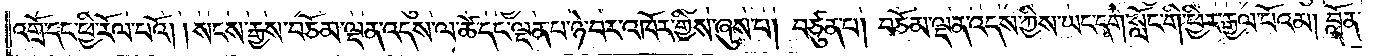འགྲོ་དང་ཕྱི་རོལ་པའོ། །སངས་རྒྱས་བཅོམ་ལྡན་འདས་ལ་ཚེ་དང་ལྡན་པ་ཉེ་བར་འཁོར་གྱིས་ཞུས་པ། བཙུན་པ། བཅོམ་ལྡན་འདས་ཀྱིས་ཡང་དགེ་སློང་གི་ཕྱིར་རྒྱལ་པོའམ། བློན་
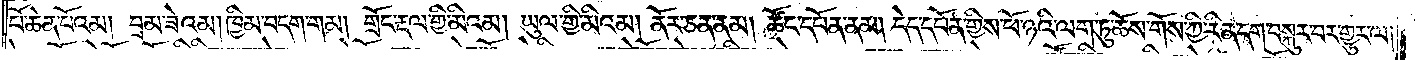པོ་ཆེན་པོའམ། བྲམ་ཟེའམ། ཁྱིམ་བདག་གམ། གྲོང་རྡལ་གྱི་མིའམ། ཡུལ་གྱི་མིའམ། ནོར་ཅན་ནམ། ཚོང་དཔོན་ནམ། དེད་དཔོན་གྱིས་ཕོ་ཉའི་ལག་ཏུ་ཆོས་གོས་ཀྱི་རིན་དག་བསྐུར་བར་གྱུར་ལ།
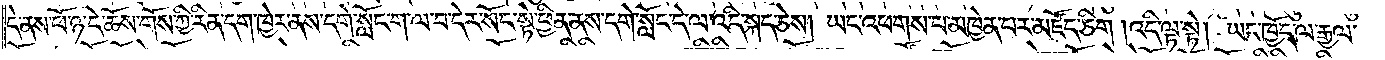དེ་ནས་ཕོ་ཉ་དེ་ཆོས་གོས་ཀྱི་རིན་དག་ཁྱེར་ནས་དགེ་སློང་ག་ལ་བ་དེར་སོང་སྟེ་ཕྱིན་ནས་དགེ་སློང་དེ་ལ་འདི་སྐད་ཅེས། ཡང་འཕགས་པ་མཁྱེན་པར་མཛོད་ཅིག །འདི་ལྟ་སྟེ། ཡང་ཁྱོད་ལ་རྒྱལ་
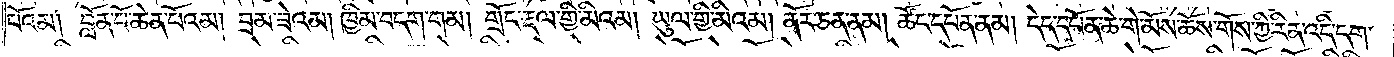པོའམ། བློན་པོ་ཆེན་པོའམ། བྲམ་ཟེའམ། ཁྱིམ་བདག་གམ། གྲོང་རྡལ་གྱི་མིའམ། ཡུལ་གྱི་མིའམ། ནོར་ཅན་ནམ། ཚོང་དཔོན་ནམ། དེད་དཔོན་ཆེ་གེ་མོས་ཆོས་གོས་ཀྱི་རིན་འདི་དག་
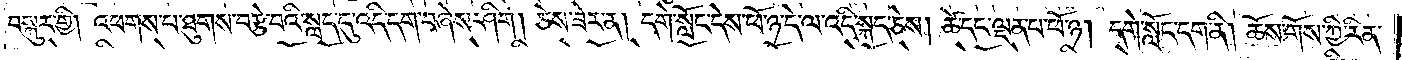བསྐུར་གྱི། འཕགས་པ་ཐུགས་བརྩེ་བའི་སླད་དུ་འདི་དག་བཞེས་ཤིག །ཅེས་ཟེར་ན། དགེ་སློང་དེས་ཕོ་ཉ་དེ་ལ་འདི་སྐད་ཅེས། ཚེ་དང་ལྡན་པ་ཕོ་ཉ། དགེ་སློང་དག་ནི། ཆོས་གོས་ཀྱི་རིན་
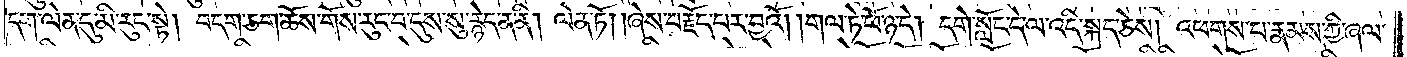དག་ལེན་དུ་མི་རུང་སྟེ། བདག་ཅག་ཆོས་གོས་རུང་བ་དུས་སུ་རྙེད་ན་ནི། ལེན་ཏོ། །ཞེས་བརྗོད་པར་བྱའོ། །གལ་ཏེ་ཕོ་ཉ་དེ། དགེ་སློང་དེ་ལ་འདི་སྐད་ཅེས། འཕགས་པ་རྣམས་ཀྱི་ཞལ་
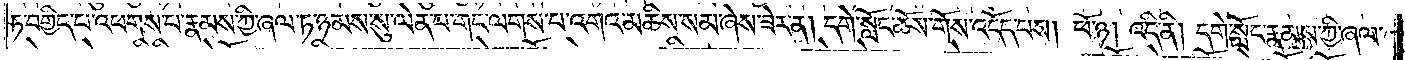ཏ་བགྱིད་པ་འཕགས་པ་རྣམས་ཀྱི་ཞལ་ཏ་ཉམས་སུ་ལེན་པ་གང་ལགས་པ་འགའ་མཆིས་སམ་ཞེས་ཟེར་ན། དགེ་སློང་ཆོས་གོས་འདོད་པས། ཕོ་ཉ། འདི་ནི། དགེ་སློང་རྣམས་ཀྱི་ཞལ་
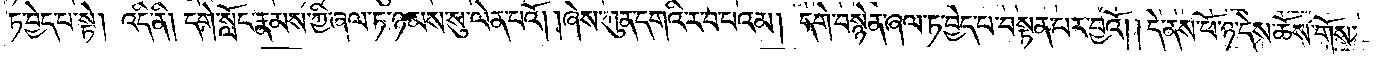ཏ་བྱེད་པ་སྟེ། འདི་ནི། དགེ་སློང་རྣམས་ཀྱི་ཞལ་ཏ་ཉམས་སུ་ལེན་པའོ། །ཞེས་ཀུན་དགའི་ར་བ་པའམ། དགེ་བསྙེན་ཞལ་ཏ་བྱེད་པ་བསྟན་པར་བྱའོ། །དེ་ནས་ཕོ་ཉ་དེས་ཆོས་གོས་
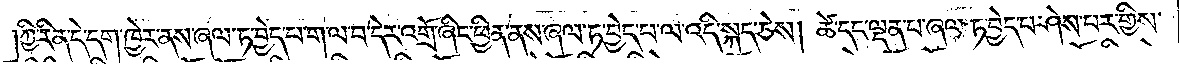།ཀྱི་རིན་དེ་དག་ཁྱེར་ནས་ཞལ་ཏ་བྱེད་པ་ག་ལ་བ་དེར་འགྲོ་ཞིང་ཕྱིན་ནས་ཞལ་ཏ་བྱེད་པ་ལ་འདི་སྐད་ཅེས། ཚེ་དང་ལྡན་པ་ཞལ་ཏ་བྱེད་པ་ཤེས་པར་གྱིས་
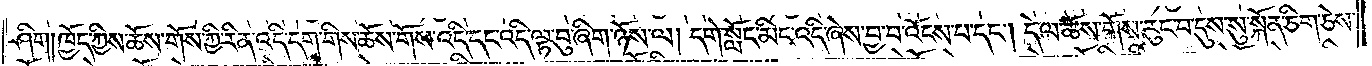ཤིག །ཁྱོད་ཀྱིས་ཆོས་གོས་ཀྱི་རིན་འདི་དག་གིས་ཆོས་གོས་འདི་དང་འདི་ལྟ་བུ་ཞིག་ཉོས་ལ། དགེ་སློང་མིང་འདི་ཞེས་བྱ་བ་འོངས་པ་དང༌། དེ་ལ་ཆོས་གོས་རུང་བ་དུས་སུ་སྐོན་ཅིག་ཅེས་
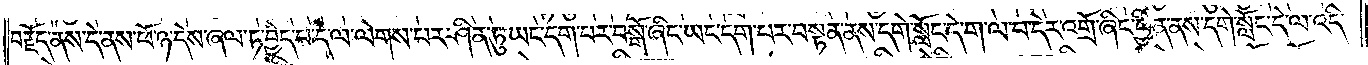བརྗོད་ནས་དེ་ནས་ཕོ་ཉ་དེས་ཞལ་ཏ་བྱེད་པ་དེ་ལ་ལེགས་པར་ཤིན་ཏུ་ཡང་དག་པར་བསྒོ་ཞིང་ཡང་དག་པར་བསྟན་ནས་དགེ་སློང་དེ་ག་ལ་བ་དེར་འགྲོ་ཞིང་ཕྱིན་ནས་དགེ་སློང་དེ་ལ་འདི་
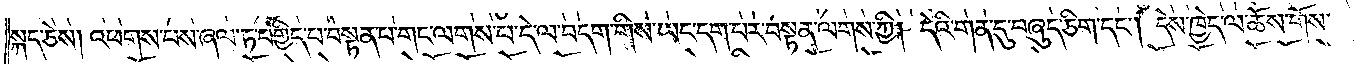སྐད་ཅེས། འཕགས་པས་ཞལ་ཏ་བགྱིད་པ་བསྟན་པ་གང་ལགས་པ་དེ་ལ་བདག་གིས་ཡང་དག་པར་བསྟན་ལགས་ཀྱི། དེའི་གན་དུ་བཞུད་ཅིག་དང༌། དེས་ཁྱེད་ལ་ཆོས་གོས་
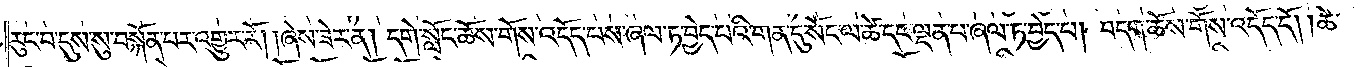རུང་བ་དུས་སུ་བསྐོན་པར་འགྱུར་རོ། །ཞེས་ཟེར་ན། དགེ་སློང་ཆོས་གོས་འདོད་པས་ཞལ་ཏ་བྱེད་པའི་གན་དུ་སོང་ལ་ཚེ་དང་ལྡན་པ་ཞལ་ཏ་བྱེད་པ། བདག་ཆོས་གོས་འདོད་དོ། །ཚེ་
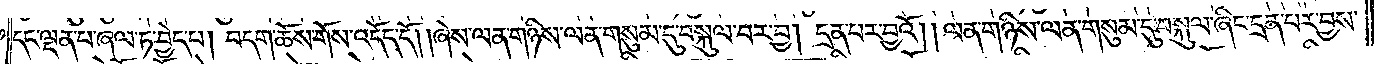དང་ལྡན་པ་ཞལ་ཏ་བྱེད་པ། བདག་ཆོས་གོས་འདོད་དོ། །ཞེས་ལན་གཉིས་ལན་གསུམ་དུ་བསྐུལ་བར་བྱ། དྲན་པར་བྱའོ། །ལན་གཉིས་ལན་གསུམ་དུ་བསྐུལ་ཞིང་དྲན་པར་བྱས་
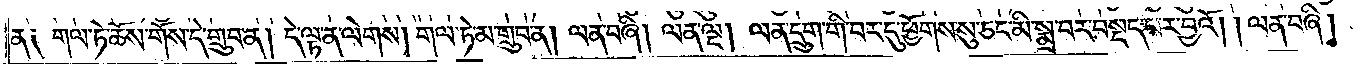ན༑ གལ་ཏེ་ཆོས་གོས་དེ་གྲུབ་ན། དེ་ལྟ་ན་ལེགས། གལ་ཏེ་མ་གྲུབ་ན། ལན་བཞི། ལན་ལྔ། ལན་དྲུག་གི་བར་དུ་ཕྱོགས་སུ་ཅང་མི་སྨྲ་བར་བསྡད་པར་བྱའོ། །ལན་བཞི།
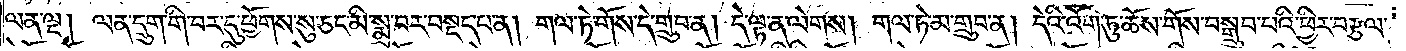ལན་ལྔ། ལན་དྲུག་གི་བར་དུ་ཕྱོགས་སུ་ཅང་མི་སྨྲ་བར་བསྡད་པ་ན། གལ་ཏེ་གོས་དེ་གྲུབ་ན། དེ་ལྟ་ན་ལེགས། གལ་ཏེ་མ་གྲུབ་ན། དེའི་འོག་ཏུ་ཆོས་གོས་བསྒྲུབ་པའི་ཕྱིར་བརྩལ་
